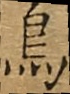鳥
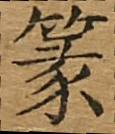篆
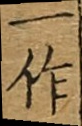一作
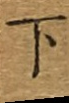下
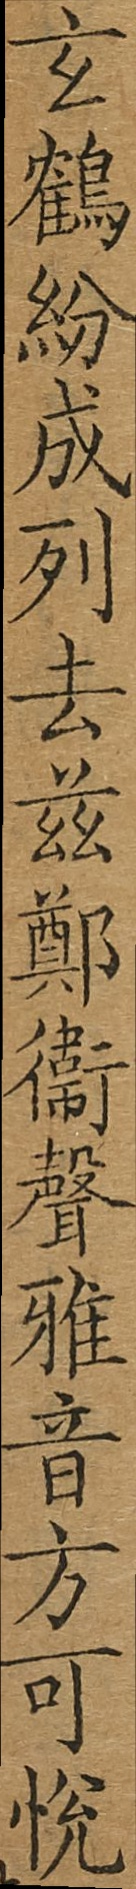玄鶴紛成列去茲鄭衛聲雅音方可悅
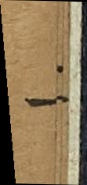一
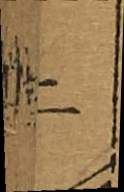二
